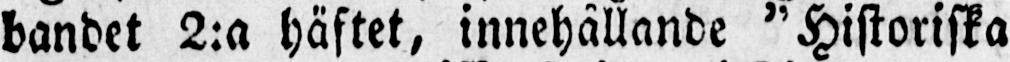bandet 2:a häftet, innehållande "Historiska
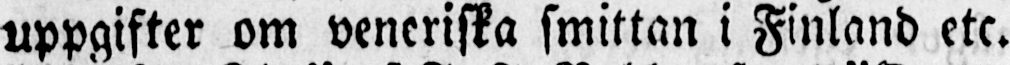uppgifter om veneriska smittan i Finland etc.
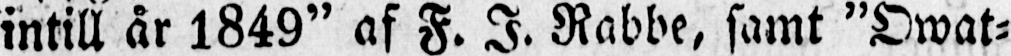intill år 1849" af F. I. Rabbe, samt "Owat-
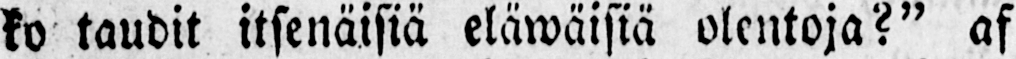ko taudit itsenäisiä eläwäisiä olentoja?" af
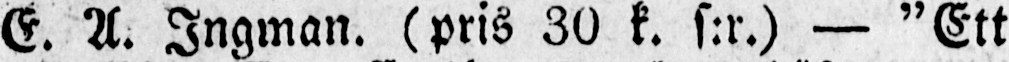E. A. Ingman. (pris 30 k. s:r.) — "Ett
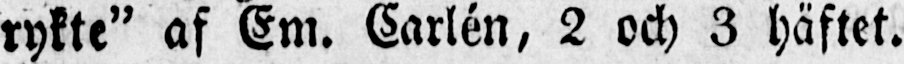rykte" af Em. Carlén, 2 och 3 häftet.
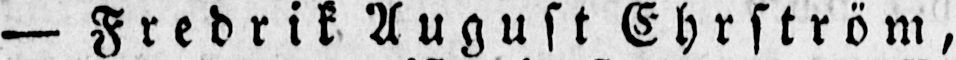— Fredrik August Ehrström,
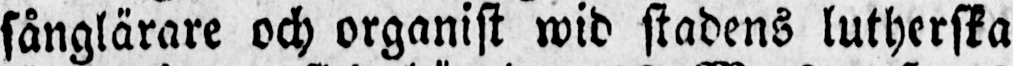sånglärare och organist wid stadens lutherska
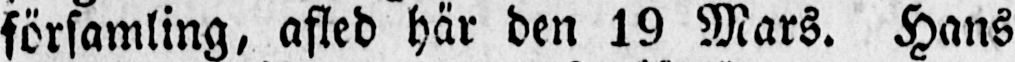församling, afled här den 19 Mars. Hans
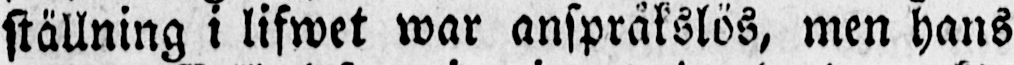ställning i lifwet war anspråkslös, men hans
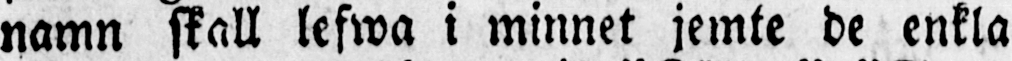namn skall lefwa i minnet jemte de enkla
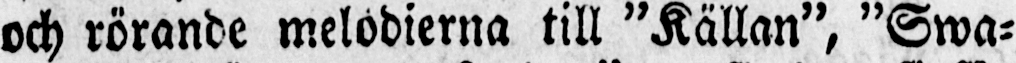och rörande melodierna till "Källan", "Swa-
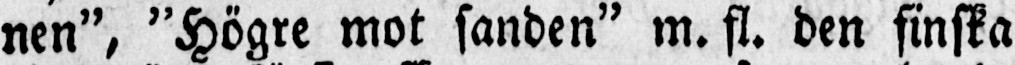nen", "Högre mot sanden" m. fl. den finska
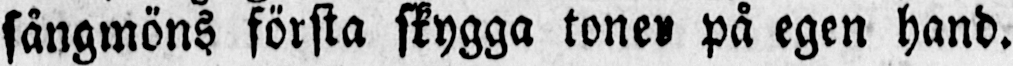sångmöns första skygga toner på egen hand.
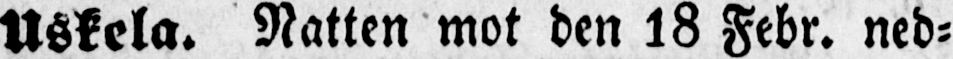Uskela. Natten mot den 18 Febr. ned-
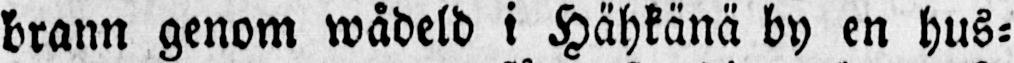brann genom wådeld i Hähkänä by en hus-
